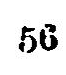56
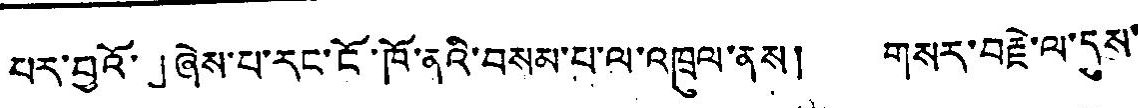པར་བྱའོ་」ཞེས་པ་རང་ངོ་ཁོ་ནའི་བསམ་པ་ལ་འཁྲུལ་ནས། གསར་བརྗེ་ལ་དུས་
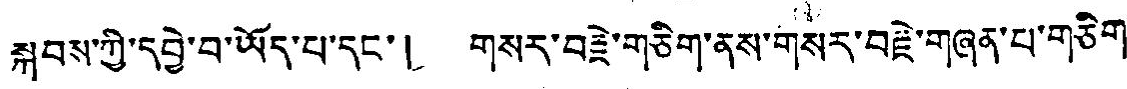སྐབས་ཀྱི་དབྱེ་བ་ཡོད་པ་དང་། གསར་བརྗེ་གཅིག་ནས་གསར་བརྗེ་གཞན་པ་གཅིག་
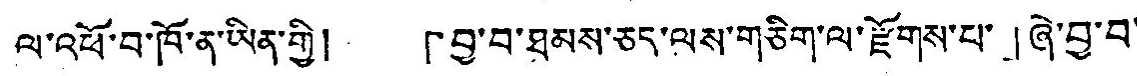ལ་འཕོ་བ་ཁོ་ན་ཡིན་གྱི། 「བྱ་བ་ཐམས་ཅད་ལུས་གཅིག་ལ་རྫོགས་པ་」ཞེ་བྱ་བ་
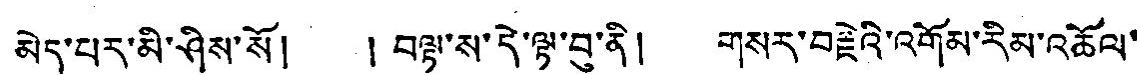མེད་པར་མི་ཤིས་སོ། ། བལྟ་ས་དེ་ལྟ་བུ་ནི། གསར་བརྗེའི་འགོམ་རིམ་འཆོལ་
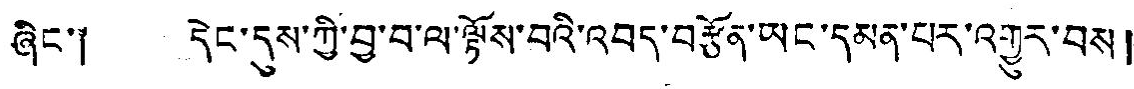ཞིང་། དེང་དུས་ཀྱི་བྱ་བ་ལ་ལྟོས་བའི་འབད་བརྩོན་ཡང་དམན་པར་འགྱུར་བས།
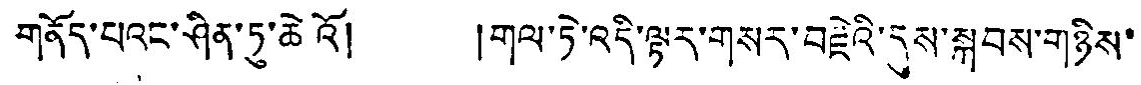གནོད་པའང་ཤིན་ཏུ་ཆེའོ། །གལ་ཏེ་འདི་ལྟར་གསར་བརྗེའི་དུས་སྐབས་གཉིས་
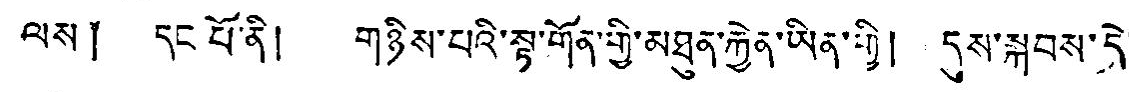ལས ༐ དང་པོ་ནི། གཉིས་པའི་སྟ་གོན་གྱི་མཐུན་རྐྱེན་ཡིན་གྱི། དུས་སྐབས་དེ་
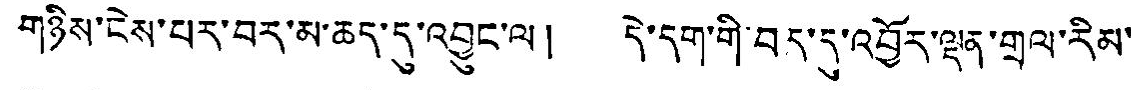གཉིས་ངེས་པར་བར་མ་ཆད་དུ་འབྱུང་ལ། དེ་དག་གི་བར་དུ་འབྱོར་ལྡན་གྲལ་རིམ་
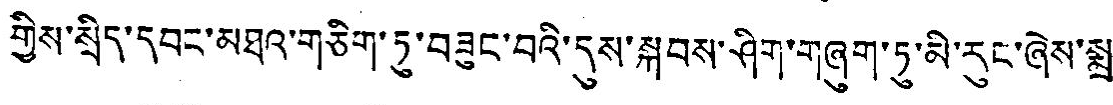གྱིས་སྲིད་དབང་མཐའ་གཅིག་ཏུ་བཟུང་བའི་དུས་སྐབས་ཤིག་གཞུག་ཏུ་མི་རུང་ཞེས་སྨྲ་
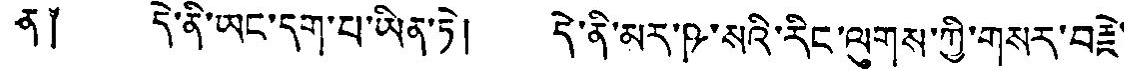ན ༐ དེ་ནི་ཡང་དག་པ་ཡིན་ཏེ། དེ་ནི་མར་ཥ་སའི་རིང་ལུགས་ཀྱི་གསར་བརྗེ་
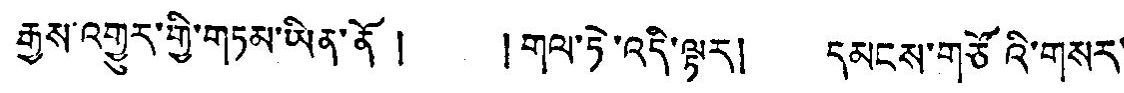རྒྱས་འགྱུར་གྱི་གཏམ་ཡིན་ནོ ། །གལ་ཏེ་འདི་ལྟར། དམངས་གཙོའི་གསར་
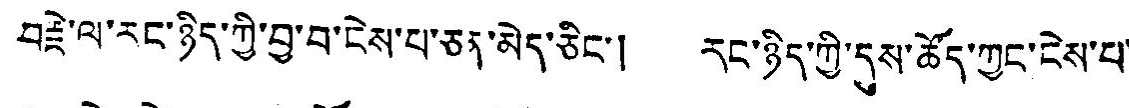བརྗེ་ལ་རང་ཉིད་ཀྱི་བྱ་བ་ངེས་པ་ཅན་མེད་ཅིང་། རང་ཉིད་ཀྱི་དུས་ཚོད་ཀྱང་ངེས་པ་
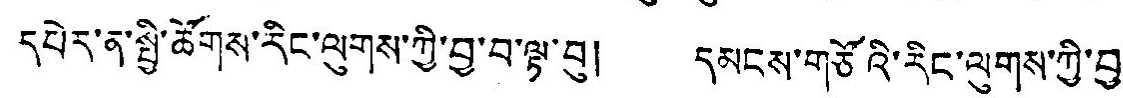དཔེར་ན་སྤྱི་ཚོགས་རིང་ལུགས་ཀྱི་བྱ་བ་ལྟ་བུ། དམངས་གཙོའི་རིང་ལུགས་ཀྱི་བྱ་
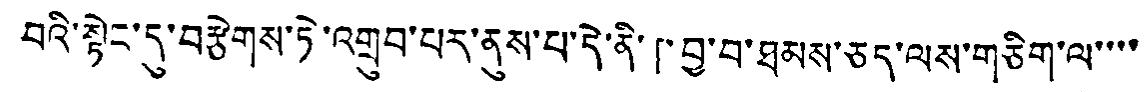བའི་སྟེང་དུ་བརྩེགས་ཏེ་འགྲུབ་པར་ནུས་པ་དེ་ནི་「བྱ་བ་ཐམས་ཅད་ལས་གཅིག་ལ་་་་
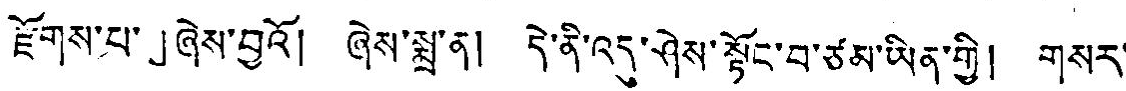རྩོགས་པ་」ཞེས་བྱའོ། ཞེས་སྨྲ་ན། དེ་ནི་འདུ་ཤེས་སྟོང་བ་ཙམ་ཡིན་གྱི། གསར་
